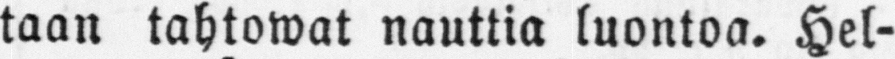taan tahtowat nauttia luontoa. Hel-
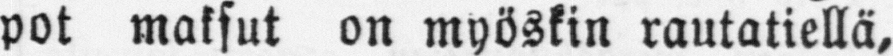pot maksut on myöskin rautatiellä,
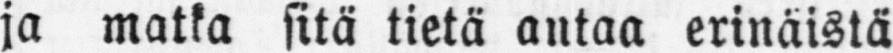ja matka sitä tietä antaa erinäistä
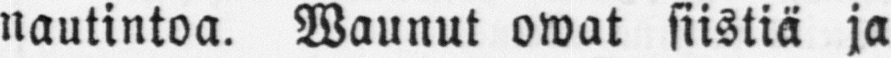nautintoa. Waunut owat siistiä ja
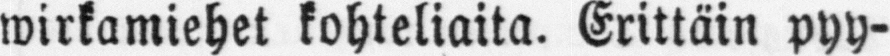wirkamiehet kohteliaita. Erittäin pyy-
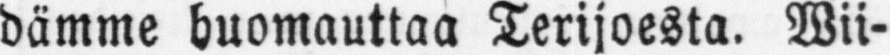dämme huomauttaa Terijoesta. Wii-
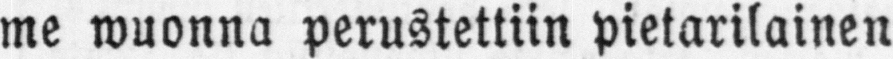me wuonna perustettiin pietarilainen
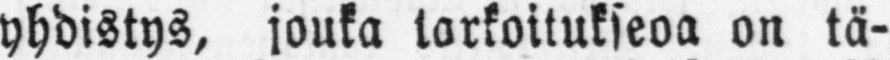yhdistys, jouka tarkoitukseoa on tä-
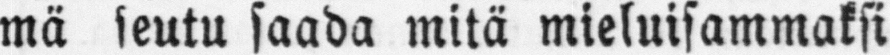mä seutu saada mitä mieluisammaksi
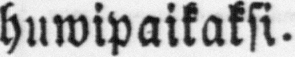huwipaikaksi.
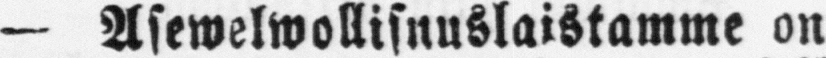— Asewelwollisnuslaistamme on
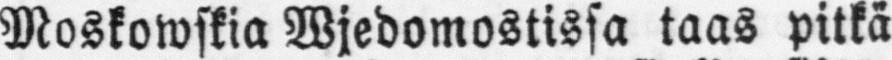Moskowskia Wjedomostissa taas pitkä
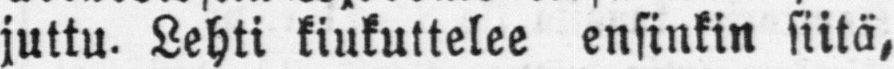juttu. Lehti kiukuttelee ensinkin siitä,
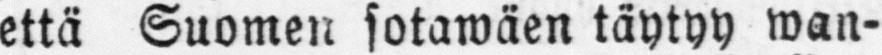että Suomen sotawäen täytyy wan-
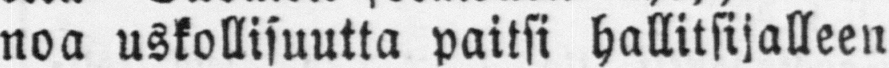noa uskollisuutta paitsi hallitsijalleen
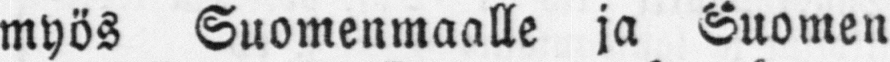myös Suomenmaalle ja Suomen
